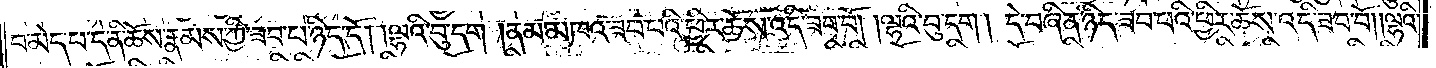བ་མེད་པ་དེ་ནི་ཆོས་རྣམས་ཀྱི་ཟབ་པ་ཉིད་དོ། །ལྷའི་བུ་དག །ནམ་མཁའ་ཟབ་པའི་ཕྱིར་ཆོས་འདི་ཟབ་བོ། །ལྷའི་བུ་དག། དེ་བཞིན་ཉིད་ཟབ་པའི་ཕྱིར་ཆོས་འདི་ཟབ་བོ། །ལྷའི་
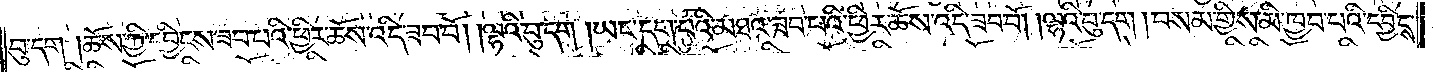བུ་དག །ཆོས་ཀྱི་དབྱིངས་ཟབ་པའི་ཕྱིར་ཆོས་འདི་ཟབ་བོ། །ལྷའི་བུ་དག །ཡང་དག་པའི་མཐའ་ཟབ་པའི་ཕྱིར་ཆོས་འདི་ཟབ་བོ། །ལྷའི་བུ་དག །བསམ་གྱིས་མི་ཁྱབ་པའི་དབྱིངས་
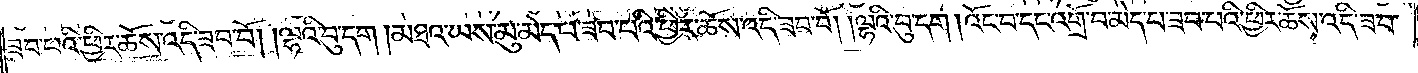ཟབ་པའི་ཕྱིར་ཆོས་འདི་ཟབ་བོ། །ལྷའི་བུ་དག །མཐའ་ཡས་མུ་མེད་པ་ཟབ་པའི་ཕྱིར་ཆོས་འདི་ཟབ་བོ། །ལྷའི་བུ་དག །འོང་བ་དང་འགྲོ་བ་མེད་པ་ཟབ་པའི་ཕྱིར་ཆོས་འདི་ཟབ་
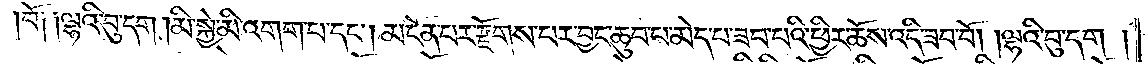བོ། །ལྷའི་བུ་དག །མི་སྐྱེ་མི་འགག་པ་དང༌། མངོན་པར་རྫོགས་པར་བྱང་ཆུབ་པ་མེད་པ་ཟབ་པའི་ཕྱིར་ཆོས་འདི་ཟབ་བོ། །ལྷའི་བུ་དག།
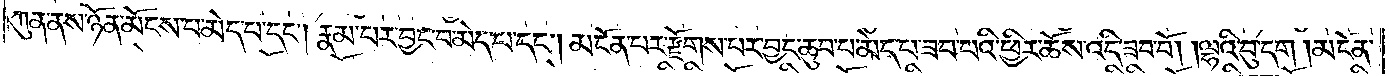ཀུན་ནས་ཉོན་མོངས་པ་མེད་པ་དང༌། རྣམ་པར་བྱང་བ་མེད་པ་དང༌། མངོན་པར་རྫོགས་པར་བྱང་ཆུབ་པ་མེད་པ་ཟབ་པའི་ཕྱིར་ཆོས་འདི་ཟབ་བོ། །ལྷའི་བུ་དག །མངོན་
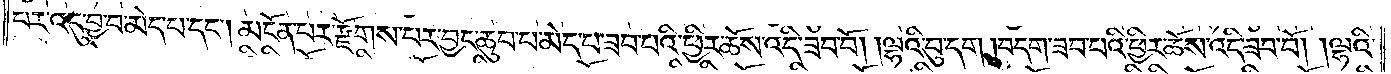པར་འདུ་བྱ་བ་མེད་པ་དང༌། མངོན་པར་རྫོགས་པར་བྱང་ཆུབ་པ་མེད་པ་ཟབ་པའི་ཕྱིར་ཆོས་འདི་ཟབ་བོ། །ལྷའི་བུ་དག །བདག་ཟབ་པའི་ཕྱིར་ཆོས་འདི་ཟབ་བོ། །ལྷའི་
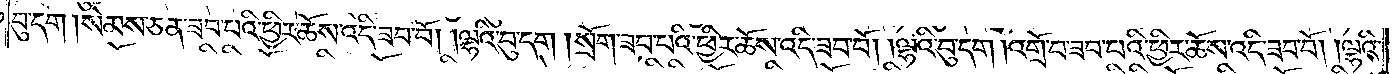བུ་དག །སེམས་ཅན་ཟབ་པའི་ཕྱིར་ཆོས་འདི་ཟབ་བོ། །ལྷའི་བུ་དག །སྲོག་ཟབ་པའི་ཕྱིར་ཆོས་འདི་ཟབ་བོ། །ལྷའི་བུ་དག །འགྲོ་བ་ཟབ་པའི་ཕྱིར་ཆོས་འདི་ཟབ་བོ། །ལྷའི་
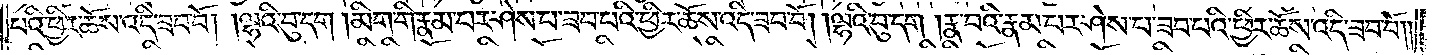པའི་ཕྱིར་ཆོས་འདི་ཟབ་བོ། །ལྷའི་བུ་དག །མིག་གི་རྣམ་པར་ཤེས་པ་ཟབ་པའི་ཕྱིར་ཆོས་འདི་ཟབ་བོ། །ལྷའི་བུ་དག །རྣ་བའི་རྣམ་པར་ཤེས་པ་ཟབ་པའི་ཕྱིར་ཆོས་འདི་ཟབ་བོ༎
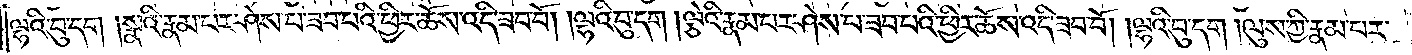ལྷའི་བུ་དག །སྣའི་རྣམ་པར་ཤེས་པ་ཟབ་པའི་ཕྱིར་ཆོས་འདི་ཟབ་བོ། །ལྷའི་བུ་དག །ལྕེའི་རྣམ་པར་ཤེས་པ་ཟབ་པའི་ཕྱིར་ཆོས་འདི་ཟབ་བོ། །ལྷའི་བུ་དག །ལུས་ཀྱི་རྣམ་པར་
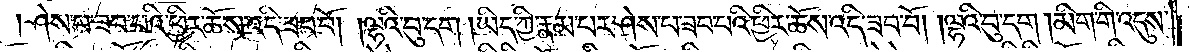ཤེས་པ་ཟབ་པའི་ཕྱིར་ཆོས་འདི་ཟབ་བོ། །ལྷའི་བུ་དག །ཡིད་ཀྱི་རྣམ་པར་ཤེས་པ་ཟབ་པའི་ཕྱིར་ཆོས་འདི་ཟབ་བོ། །ལྷའི་བུ་དག །མིག་གི་འདུས་
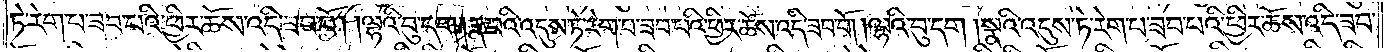ཏེ་རེག་པ་ཟབ་པའི་ཕྱིར་ཆོས་འདི་ཟབ་བོ། །ལྷའི་བུ་དག །རྣ་བའི་འདུས་ཏེ་རེག་པ་ཟབ་པའི་ཕྱིར་ཆོས་འདི་ཟབ་བོ། །ལྷའི་བུ་དག །སྣའི་འདུས་ཏེ་རེག་པ་ཟབ་པའི་ཕྱིར་ཆོས་འདི་ཟབ་
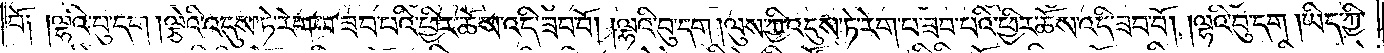བོ། །ལྷའི་བུ་དག །ལྕེའི་འདུས་ཏེ་རེག་པ་ཟབ་པའི་ཕྱིར་ཆོས་འདི་ཟབ་བོ། །ལྷའི་བུ་དག །ལུས་ཀྱི་འདུས་ཏེ་རེག་པ་ཟབ་པའི་ཕྱིར་ཆོས་འདི་ཟབ་བོ། །ལྷའི་བུ་དག །ཡིད་ཀྱི་
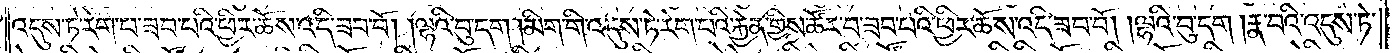འདུས་ཏེ་རེག་པ་ཟབ་པའི་ཕྱིར་ཆོས་འདི་ཟབ་བོ། །ལྷའི་བུ་དག །མིག་གི་འདུས་ཏེ་རེག་པའི་རྐྱེན་གྱིས་ཚོར་བ་ཟབ་པའི་ཕྱིར་ཆོས་འདི་ཟབ་བོ། །ལྷའི་བུ་དག །རྣ་བའི་འདུས་ཏེ་
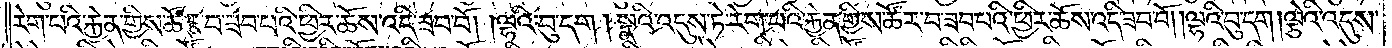རེག་པའི་རྐྱེན་གྱིས་ཚོར་བ་ཟབ་པའི་ཕྱིར་ཆོས་འདི་ཟབ་བོ། །ལྷའི་བུ་དག །སྣའི་འདུས་ཏེ་རེག་པའི་རྐྱེན་གྱིས་ཚོར་བ་ཟབ་པའི་ཕྱིར་ཆོས་འདི་ཟབ་བོ། །ལྷའི་བུ་དག །ལྕེའི་འདུས་
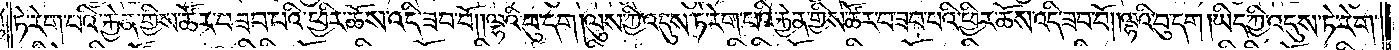ཏེ་རེག་པའི་རྐྱེན་གྱིས་ཚོར་བ་ཟབ་པའི་ཕྱིར་ཆོས་འདི་ཟབ་བོ། །ལྷའི་བུ་དག །ལུས་ཀྱི་འདུས་ཏེ་རེག་པའི་རྐྱེན་གྱིས་ཚོར་བ་ཟབ་པའི་ཕྱིར་ཆོས་འདི་ཟབ་བོ། །ལྷའི་བུ་དག །ཡིད་ཀྱི་འདུས་ཏེ་རེག་
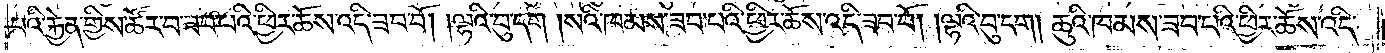པའི་རྐྱེན་གྱིས་ཚོར་བ་ཟབ་པའི་ཕྱིར་ཆོས་འདི་ཟབ་བོ། །ལྷའི་བུ་དག །སའི་ཁམས་ཟབ་པའི་ཕྱིར་ཆོས་འདི་ཟབ་བོ། །ལྷའི་བུ་དག །ཆུའི་ཁམས་ཟབ་པའི་ཕྱིར་ཆོས་འདི་
